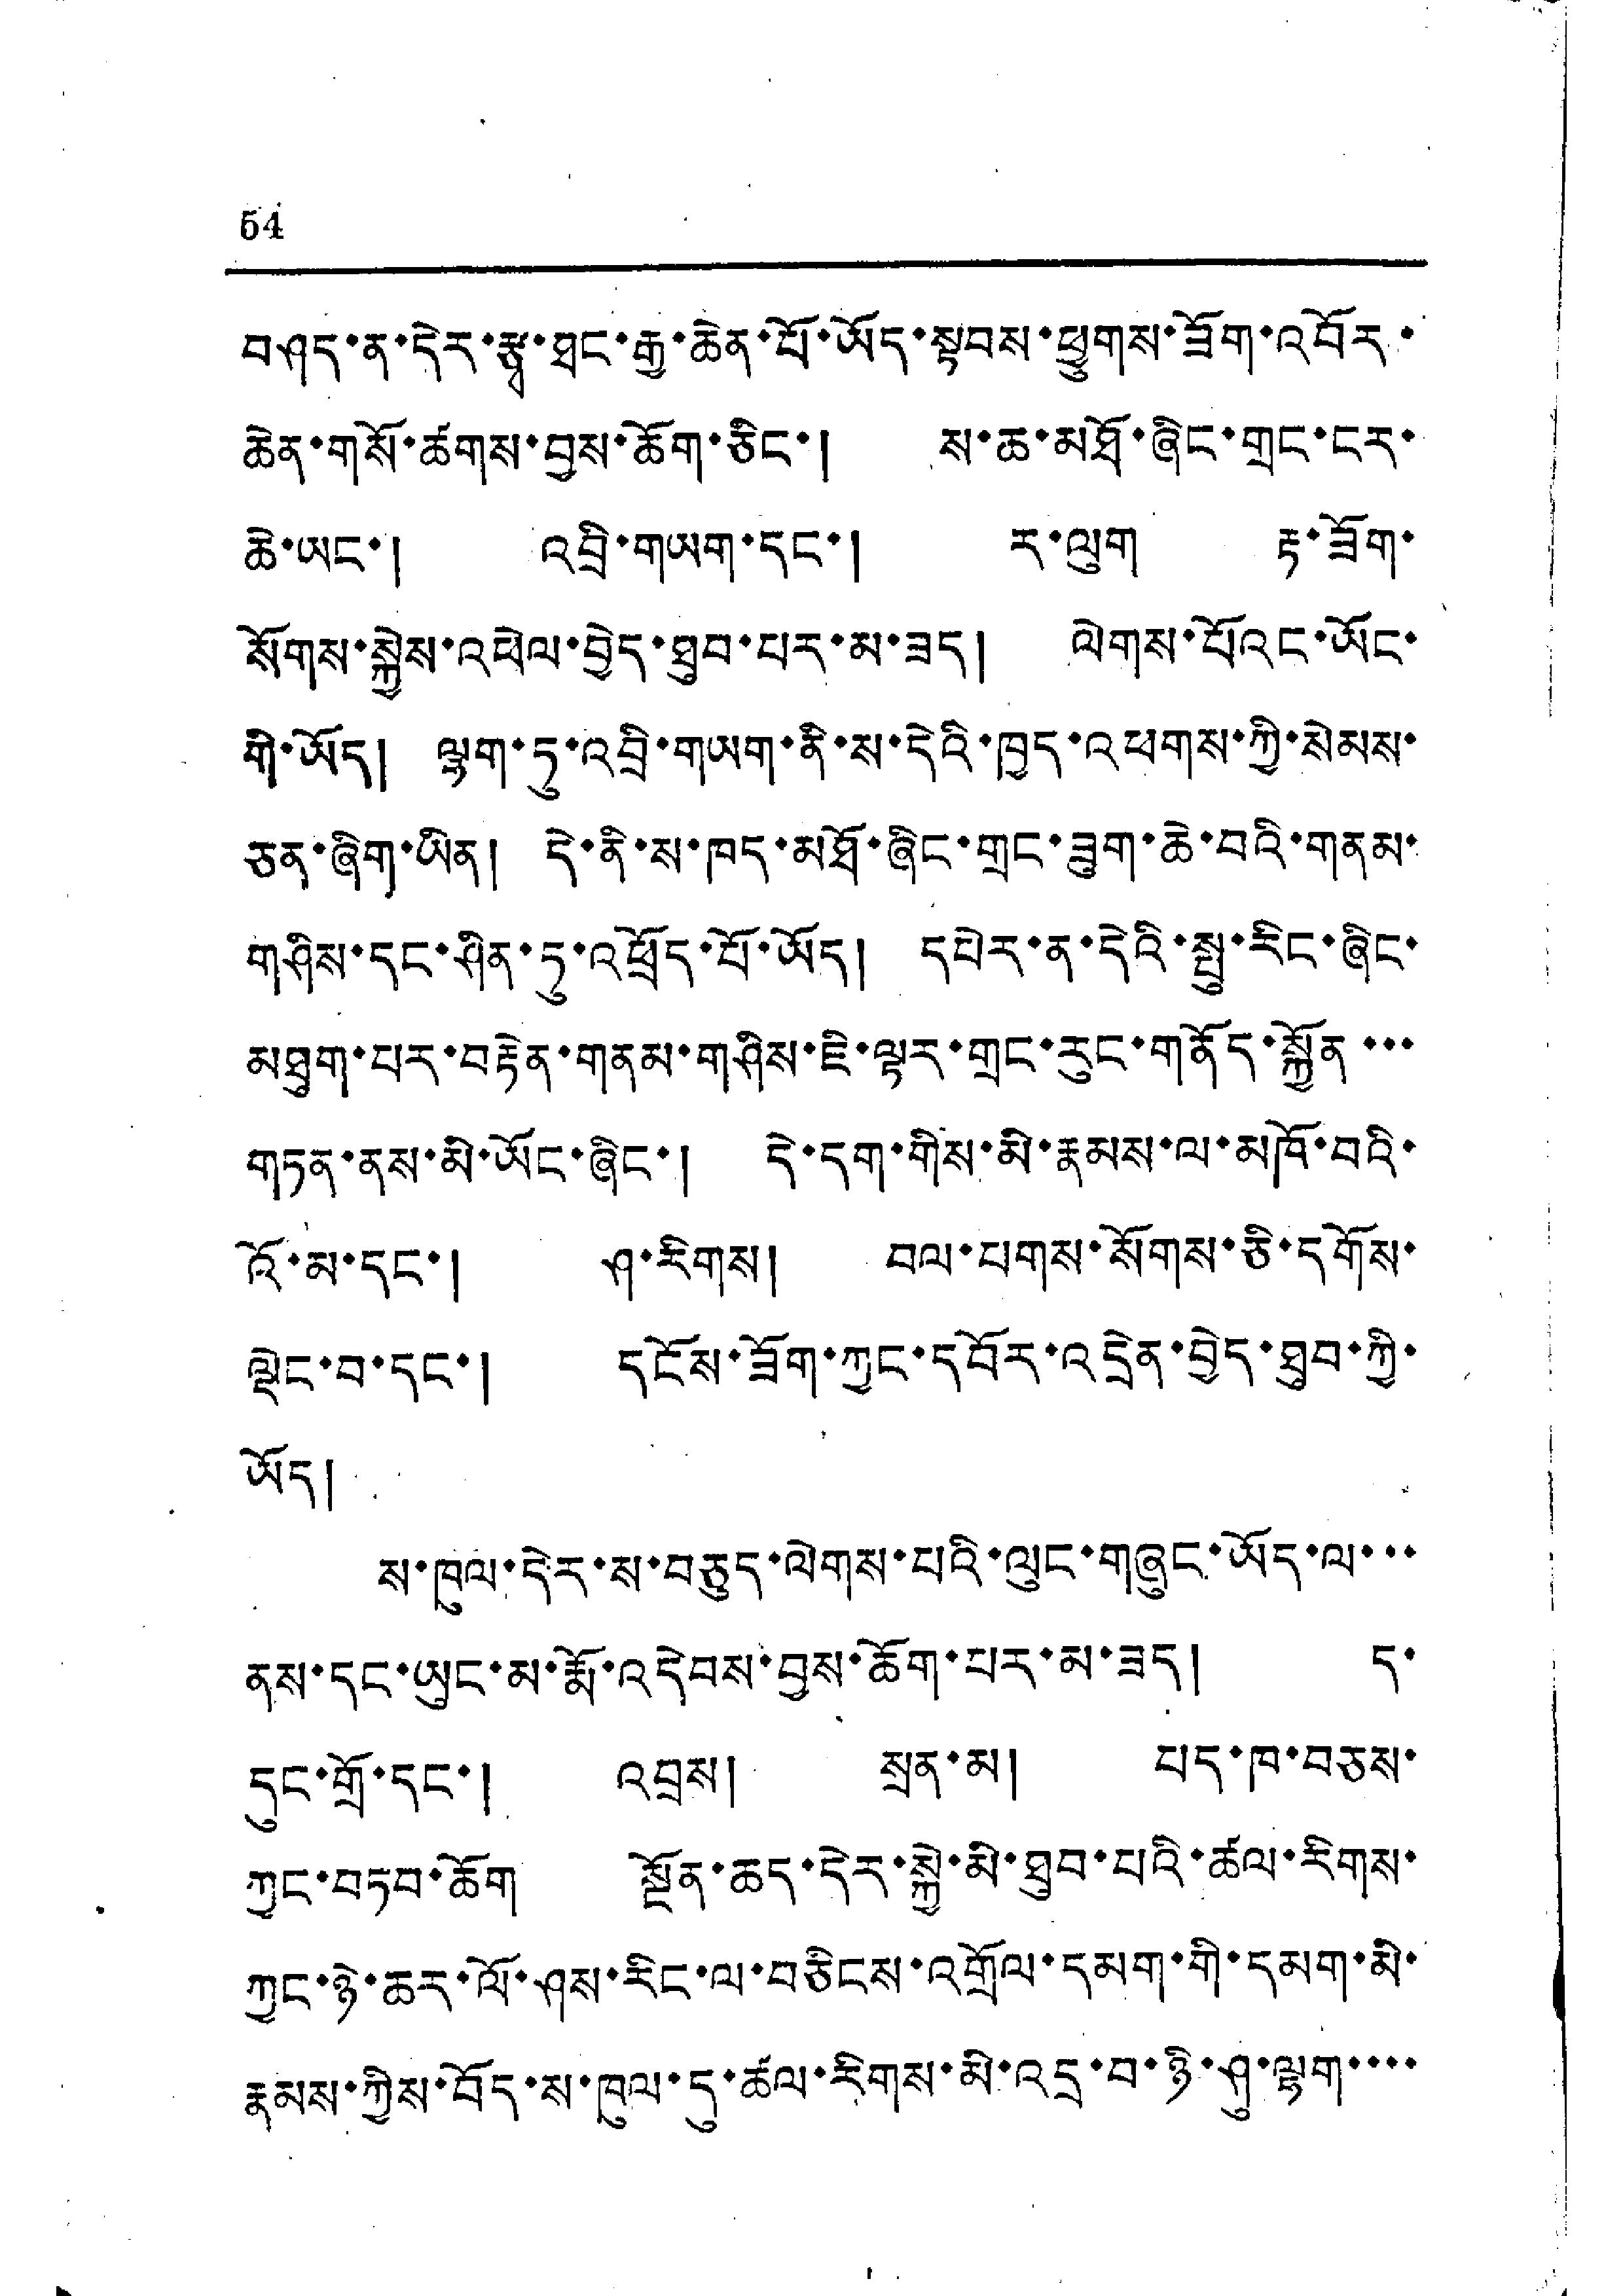54
བཤད་ན་དེར་རྩྭ་ཐང་རྒྱ་ཆེན་པོ་ཡོད་སྟབས་ཕྱུགས་ཟོག་འབོར་
ཆེན་གསོ་ཚགས་བྱས་ཆོག་ཅིང་། ས་ཆ་མཐོ་ཞིང་གྲང་ངར་
ཆེ་ཡང་། འབྲི་གཡག་དང་། ར་ལུག རྟ་ཟོག་
སོགས་སྐྱེས་འཕེལ་བྱེད་ཐུབ་པར་མ་ཟད། ལེགས་པོའང་ཡོང་
གི་ཡོད། ལྷག་ཏུ་འབྲི་གཡག་ནི་ས་དེའི་ཁྱད་འཕགས་ཀྱི་སེམས་
ཅན་ཞིག་ཡིན། དེ་ནི་ས་ཁད་མཐོ་ཞིང་གྲང་ཟུག་ཆེ་བའི་གནམ་
གཤིས་དང་ཤིན་ཏུ་འཕྲོད་པོ་ཡོད། དཔེར་ན་དེའི་སྤུ་རིང་ཞིང་
མཐུག་པར་བརྟེན་གནམ་གཤིས་ཇི་ལྟར་གྲང་རུང་གནོད་སྐྱོན་་་
གཏན་ནས་མི་ཡོང་ཞིང་། དེ་དག་གིས་མི་རྣམས་ལ་མཁོ་བའི་
འོ་མ་དང་། ཤ་རིགས། བལ་པགས་སོགས་ཅི་དགོས་
ལྡེང་བ་དང་། དངོས་ཟོག་ཀྱང་དབོར་འདྲེན་བྱེད་ཐུབ་ཀྱི་
ཡོད།
ས་ཁུལ་དེར་ས་བཅུད་ལེགས་པའི་ལུང་གཞུང་ཡོད་ལ་་་
ནས་དང་ཡུང་མ་རྨོ་འདེབས་བྱས་ཆོག་པར་མ་ཟད། ད་
དུང་གྲོ་དང་། འབྲས། སྲན་མ། པད་ཁ་བཅས་
ཀྱང་བཏབ་ཆོག སྔོན་ཆད་དེར་སྐྱེ་མི་ཐུབ་པའི་ཚལ་རིགས་
ཀྱང་ཉེ་ཆར་ལོ་ཤས་རིང་ལ་བཅིངས་འགྲོལ་དམག་གི་དམག་མི་
རྣམས་ཀྱིས་བོད་ས་ཁུལ་དུ་ཚལ་རིགས་མི་འདྲ་བ་ཉི་ཤུ་ལྷག་་་་
